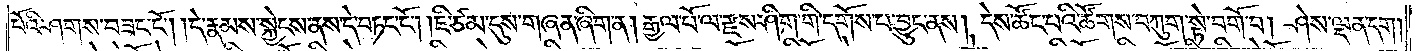པོའི་ཤགས་བཟང་ངོ༌། །དེ་རྣམས་སྐྱེངས་ནས་དེ་བཏང་ངོ༌། །ཇི་ཙམ་དུས་གཞན་ཞིག་ན། རྒྱལ་པོ་ལ་རྫས་ཤིག་གི་དགོས་པ་བྱུང་ནས། དེས་ཚོང་བའི་ཚོགས་བཀུག་སྟེ་བགོ་བ། ཤེས་ལྡན་དག་
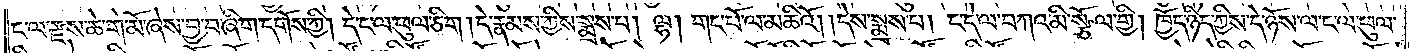ང་ལ་རྫས་ཆེ་གེ་མོ་ཞེས་བྱ་བ་ཞིག་དགོས་ཀྱི། དེ་ང་ལ་ཕུལ་ཅིག །དེ་རྣམས་ཀྱིས་སྨྲས་པ། ལྷ། གང་པོ་ལ་མཆིའོ། །དེས་སྨྲས་པ། ང་དེ་ལ་བཀའ་མི་སྩོལ་གྱི། ཁྱོད་ཉིད་ཀྱིས་དེ་ཉོས་ལ་ང་ལ་ཕུལ་
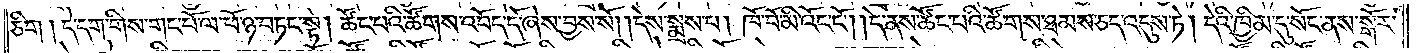ཅིག །དེ་དག་གིས་གང་པོ་ལ་ཕོ་ཉ་བཏང་སྟེ། ཚོང་བའི་ཚོགས་འབོད་དོ་ཞེས་བྱས་སོ། །དེས་སྨྲས་པ། ཁོ་བོ་མི་འོང་ངོ༌། །དེ་ནས་ཚོང་པའི་ཚོགས་ཐམས་ཅད་འདུས་ཏེ། དེའི་ཁྱིམ་དུ་སོང་ནས་སྒོར་
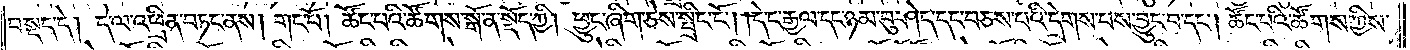བསྡད་དེ། དེ་ལ་འཕྲིན་བཏང་ནས། གང་པོ། ཚོང་པའི་ཚོགས་སྒོ་ན་སྡོད་ཀྱི། ཕྱུང་ཞིག་ཅེས་སྤྲིང་ངོ༌། །དེ་ང་རྒྱལ་དང་ཉམ་བུ་ཤེད་དང་བཅས་པའི་དྲེགས་པས་བྱུང་བ་དང༌། ཚོང་བའི་ཚོགས་ཀྱིས་
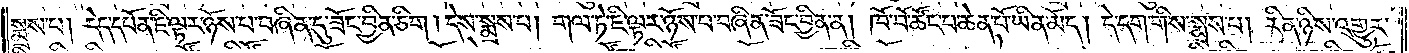སྨྲས་པ། དེད་དཔོན་ཇི་ལྟར་ཉོས་པ་བཞིན་དུ་ཟོང་བྱིན་ཅིག །དེས་སྨྲས་པ། གལ་ཏེ་ཇི་ལྟར་ཉོས་པ་བཞིན་ཟོང་བྱིན་ན། ཁོ་བོ་ཚོང་པ་ཆེན་པོ་ཡིན་མོད། དེ་དག་གིས་སྨྲས་པ། རིན་ཉིས་འགྱུར་
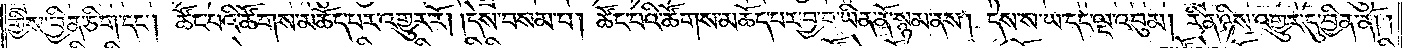གྱི་བྱིན་ཅིག་དང༌། ཚོང་པའི་ཚོགས་མཆོད་པར་འགྱུར་རོ། །དེས་བསམ་པ། ཚོང་བའི་ཚོགས་མཆོད་པར་བྱ་བ་ཡིན་ནོ་སྙམ་ནས། དེས་ས་ཡ་དང་ལྔ་འབུམ། རིན་ཉིས་འགྱུར་དུ་བྱིན་ནོ། །
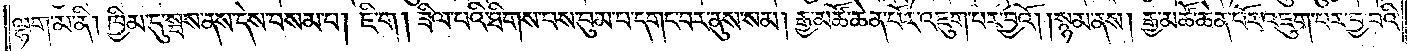ལྷག་མ་ནི། ཁྱིམ་དུ་སྦས་ནས་དེས་བསམ་པ། ཇི་ག། ཟིལ་པའི་ཐིགས་པས་བུམ་པ་དགང་བར་ནུས་སམ། རྒྱ་མཚོ་ཆེན་པོར་འཇུག་པར་བྱའོ། །སྙམ་ནས། རྒྱ་མཚོ་ཆེན་པོར་འཇུག་པར་བྱ་བའི་
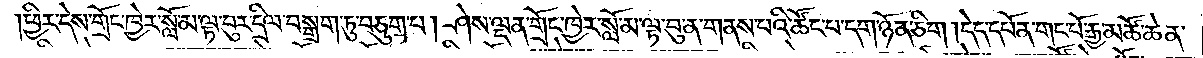ཕྱིར་དེས་གྲོང་ཁྱེར་སློ་མ་ལྟ་བུར་དྲིལ་བསྒྲགས་ཏུ་བཅུག་པ། ཤེས་ལྡན་གྲོང་ཁྱེར་སློ་མ་ལྟ་བུ་ན་གནས་པའི་ཚོང་པ་དག་ཉོན་ཅིག །དེད་དཔོན་གང་པོ་རྒྱ་མཚོ་ཆེན་
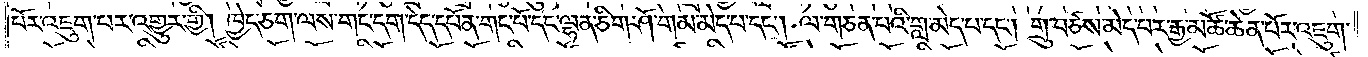པོར་འཇུག་པར་འགྱུར་གྱི། ཁྱེད་ཅག་ལས་གང་དག་དེད་དཔོན་གང་པོ་དང་ལྷན་ཅིག་ཤོ་གམ་མེད་པ་དང༌། ལ་གཅན་པའི་གླ་མེད་པ་དང༌། གྲུ་བཙས་མེད་པར་རྒྱ་མཚོ་ཆེན་པོར་འཇུག་
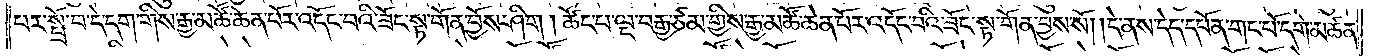པར་སྤྲོ་བ་དེ་དག་གིས་རྒྱ་མཚོ་ཆེན་པོར་འདོང་བའི་ཟོང་སྟ་གོན་བྱོས་ཤིག །ཚོང་པ་ལྔ་བརྒྱ་ཙམ་གྱིས་རྒྱ་མཚོ་ཆེན་པོར་འདོང་བའི་ཟོང་སྟ་གོན་བྱས་སོ། །དེ་ནས་དེད་དཔོན་གང་པོ་དགེ་མཚན་
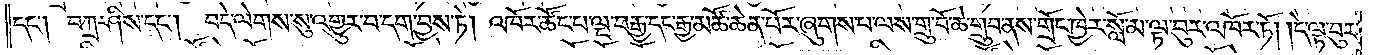དང༌། བཀྲ་ཤིས་དང༌། བདེ་ལེགས་སུ་འགྱུར་བ་དག་བྱས་ཏེ། འཁོར་ཚོང་པ་ལྔ་བརྒྱ་དང་རྒྱ་མཚོ་ཆེན་པོར་ཞུགས་པ་ལས་གྲུ་བོ་ཆེ་གྲུབ་ནས་གྲོང་ཁྱེར་སློ་མ་ལྟ་བུར་འཁོར་ཏོ། །དེ་ལྟ་བུར་
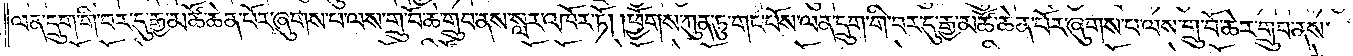ལན་དྲུག་གི་བར་དུ་རྒྱ་མཚོ་ཆེན་པོར་ཞུགས་པ་ལས་གྲུ་བོ་ཆེ་གྲུབ་ནས་སླར་འཁོར་ཏོ། །ཕྱོགས་ཀུན་ཏུ་གང་པོས་ལན་དྲུག་གི་བར་དུ་རྒྱ་མཚོ་ཆེན་པོར་ཞུགས་པ་ལས་གྲུ་བོ་ཆེར་གྲུབ་ནས་
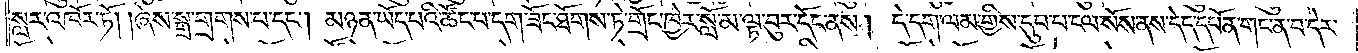སླར་འཁོར་ཏོ། །ཞེས་སྒྲ་གྲགས་པ་དང༌། མཉན་ཡོད་པའི་ཚོང་པ་དག་ཟོང་ཐོགས་ཏེ་གྲོང་ཁྱེར་སློ་མ་ལྟ་བུར་དོང་ནས། དེ་དག་ལམ་གྱིས་དུབ་པ་ངལ་སོས་ནས་དེད་དཔོན་གང་ན་བ་དེར་
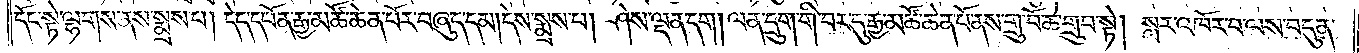དོང་སྟེ་ལྷགས་ནས་སྨྲས་པ། དེད་དཔོན་རྒྱ་མཚོ་ཆེན་པོར་བཞུད་དམ། དེས་སྨྲས་པ། ཤེས་ལྡན་དག། ལན་དྲུག་གི་བར་དུ་རྒྱ་མཚོ་ཆེན་པོ་ནས་གྲུ་བོ་ཆེ་གྲུབ་སྟེ། སླར་འཁོར་བ་ལས་བདུན་
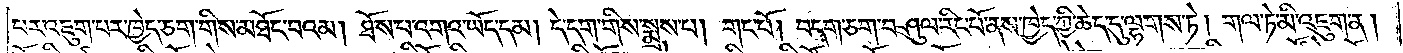པར་འཇུག་པར་ཁྱེད་ཅག་གིས་མཐོང་བའམ། ཐོས་པ་འགའ་ཡོད་དམ། དེ་དག་གིས་སྨྲས་པ། གང་པོ། བདག་ཅག་བཤུལ་རིང་པོ་ནས་ཁྱེད་ཀྱི་ཆེད་དུ་ལྷགས་ཏེ། གལ་ཏེ་མི་འཇུག་ན།
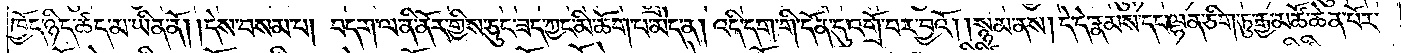ཁྱོད་ཉིད་ཚད་མ་ཡིན་ནོ། །དེས་བསམ་པ། བདག་ལ་ནི་ནོར་གྱིས་ཅུང་ཟད་ཀྱང་མི་ཆོག་པ་མེད་ན། འདི་དག་གི་དོན་དུ་འགྲོ་བར་བྱའོ། །སྙམ་ནས། དེ་དེ་རྣམས་དང་ལྷན་ཅིག་ཏུ་རྒྱ་མཚོ་ཆེན་པོར་
